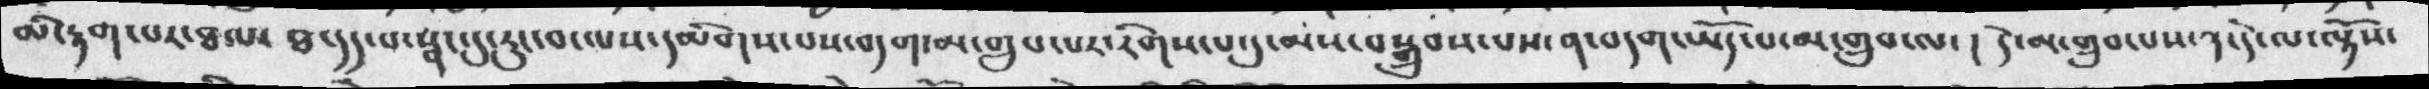མི་རྟག་པར་ཐལ་ ཐ་དད་པ་སྣང་དུ་རུང་བ་ལས་དམིགས་པས་བདག་མ་གྲུབ་པར་རིགས་པ་དུ་མས་བསྒྲུབས་པས་ན་བདག་ཡོད་པ་མ་གྲུབ་ལ་ ། དེ་མ་གྲུབ་པས་༣་དེ་ལ་ལྟོས་
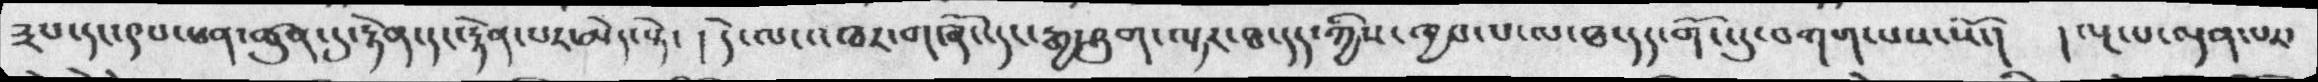༣པ་དང་༩པ་ཕན་ཚུན་དུ་རྟེན་དང་རྟེན་པར་མེད་སྟེ་ ། དེ་ལ་འཁར་གཞོ་དང་རྒྱ་ཤུག་ལྟར་ཐ་དད་ཀྱིས་ཁྱབ་པ་ལ་ཐ་དད་གོང་དུ་བགག་པས་སོ་།  །ལྔ་པ་ལྡན་པར་
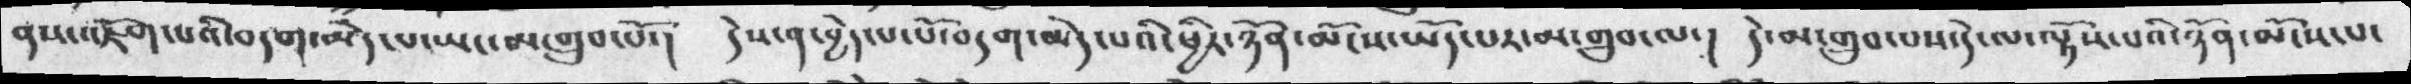ནས་འཇོག་པའི་བདག་མེད་པ་ཡང་མ་གྲུབ་པོ་།  དེས་ན་བྱེད་པ་པོ་བདག་མེད་པའི་ཕྱིར་ཉོན་མོངས་ཡོད་པར་མ་གྲུབ་ལ་།  དེ་མ་གྲུབ་པས་དེ་ལ་ལྟོས་པའི་ཉོན་མོངས་པ་
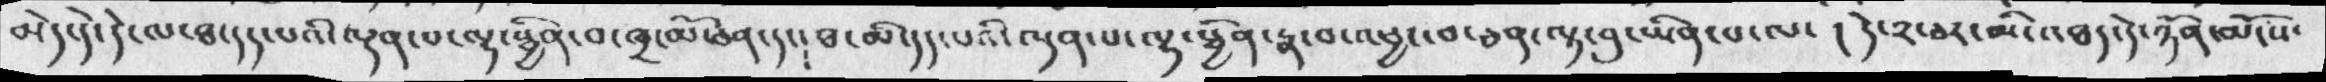མེད་དེ་དེ་ལ་ཐ་དད་པའི་ལྡན་པ་ལྷ་སྦྱིན་བ་ཁྲ་མོ་ཅན་དང༴ ཐ་མི་དད་པའི་ལྡན་པ་ལྷ་སྦྱིན་རྣ་བ་འཕྱ་བ་ཅན་ལྟ་བུ་ཡིན་པ་ལ་ ། དེ་༢་ཅར་མི་འཐད་དེ་ཉོན་མོངས་
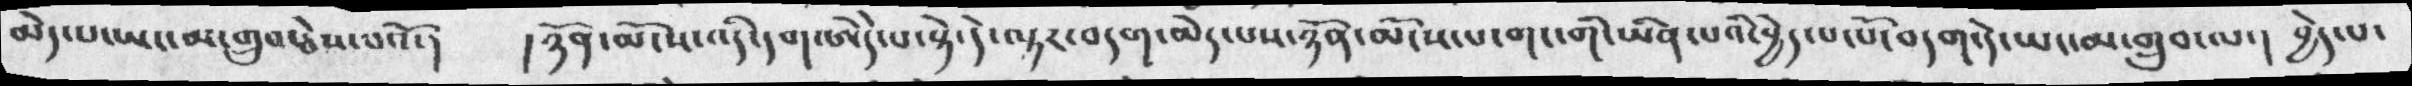མེད་པ་ཡང་མ་གྲུབ་ཅེས་པའོ་།  ། ཉོན་མོངས་འདི་དག་ཨེདེ་པ་སྟེ་དེ་ལྟར་བདག་མེད་པས་ཉོན་མོངས་པ་གང་གི་ཡིན་པའི་བྱེད་པ་པོ་བདག་དེ་ཡང་མ་གྲུབ་ལ་།  བྱེད་པ་
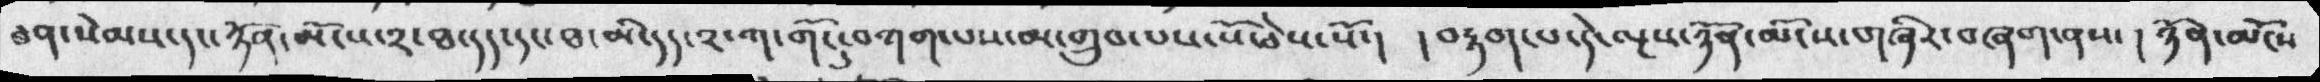ཕན་སེམས་དང་ཉོན་མོངས་༢་ཐ་དད་ད་ཐ་མི་དད་༢་ཀ་གོང་དུ་བཀག་པས་མ་གྲུབ་པས་སོ་ཅེས་སོ་།  །བརྟག་པ་དེ་ལྔས་ཉོན་མོངས་གཞིར་བཞག་ནས་།  ཉོན་མོངས་
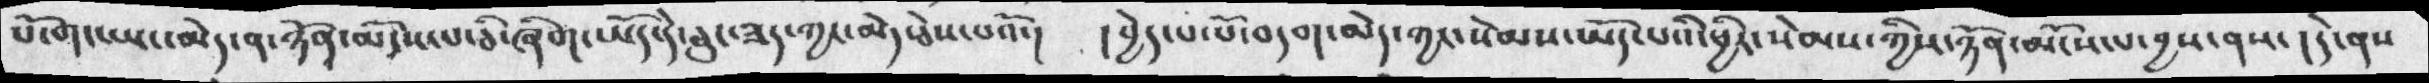པོ་གང་ཡང་མེད་ན་ཉོན་མོངས་པ་ཅི་ཞིག་ཡོད་དེ་ཅུང་ཟད་ཀྱང་མེད་ཅེས་པའོ་།  །བྱེད་པ་པོ་བདག་མེད་ཀྱང་སེམས་ཡོད་པའི་ཕྱིར་སེམས་ཀྱིས་ཉོན་མོངས་པ་བྱས་ནས་། དེ་ནས་
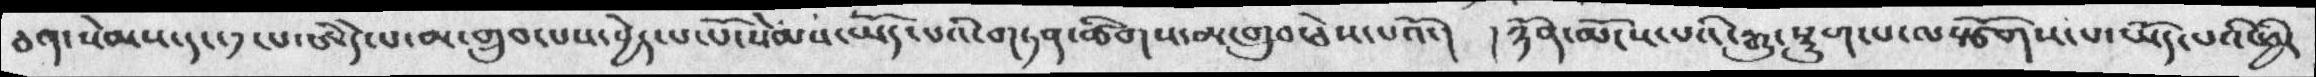ཅན་སེམས་དང་༡་པ་ཨེདེ་པ་མ་གྲུབ་པས་བྱེད་པ་པོ་སེམས་ཡོད་པའི་གཏན་ཚིགས་མ་གྲུབ་ཅེས་པའོ་།  ཉོན་མོངས་པའི་རྒྱུ་སྡུག་པ་ལསྩོགས་པ་ཡོད་པའི་ཕྱིར་
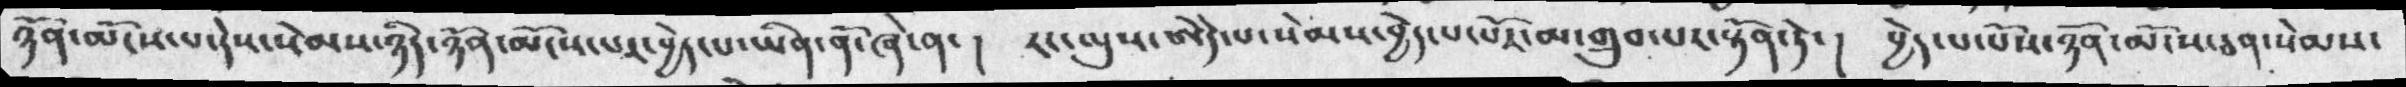ཉོན་མོངས་པ་དེས་སེམས་ཉིད་ཉོན་མོངས་པར་བྱེད་པ་ཡིན་ནོ་ཞེ་ན་།  རང་ལུས་ཨེདེ་པ་སེམས་བྱེད་པ་པོར་མ་གྲུབ་པར་སྟོན་ཏེ་།  བྱེད་པ་པོས་ཉོན་མོངས་ཅན་སེམས་
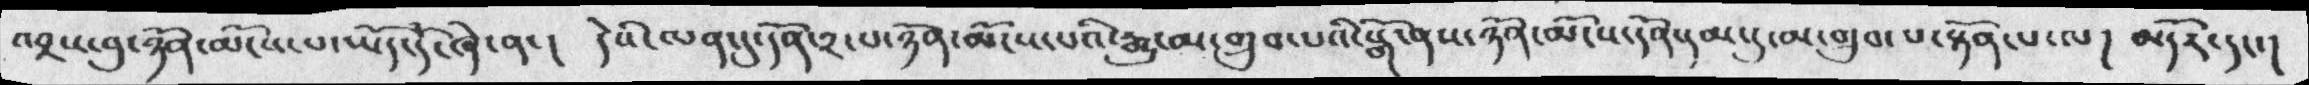འབྲས་བུ་ཉོན་མོངས་པ་ཡོད་དོ་ཞེ་ན་།  དེའི་ལན་དུ་དོན་༢་པ་ཉོན་མོངས་པའི་རྒྱུ་མ་གྲུབ་པའི་སྒོ་ནས་ཉོན་མོངས་དོན་དམ་དུ་མ་གྲུབ་པ་སྟོན་པ་ལ་། མདོར་དང་།
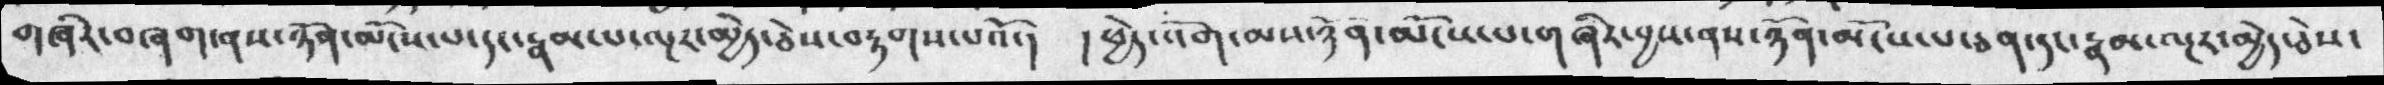གཞིར་བཞག་ནས་ཉོན་མོངས་པ་དང་རྣམ་པ་ལྔར་མྱེད་ཅེས་བརྟགས་པའོ་། །ཕྱེད་འོག་མས་ཉོན་མོངས་པ་གཞིར་བྱས་ནས་ཉོན་མོངས་པ་ཅན་དང་རྣམ་ལྔར་མྱེད་ཅེས་
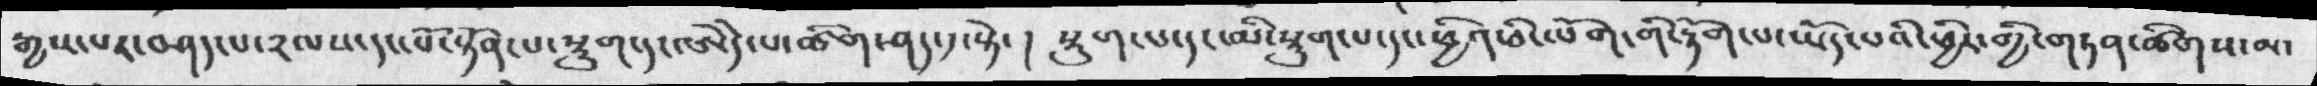རྒྱས་པར་བཤད་པ་༢ལས་དང་པོ་སྟོན་པ་སྡུག་དང་ཨེདེ་པ་ཚིག་ཤད་༡་སྟེ་ །  སྡུག་པ་དང་མི་སྡུག་པ་དང་ཕྱིན་ཅི་ལོག་གི་རྟོག་པ་ཡོད་པའི་ཕྱིར་གྱི་གཏན་ཚིགས་མ་
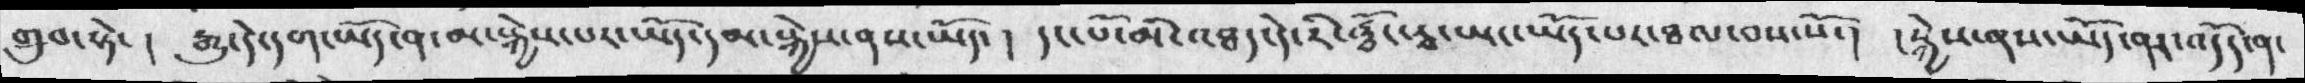གྲུབ་སྟེ་ ། རྒྱུ་དེ་དག་ཡོད་ན་མ་སྐྱེས་པར་ཡོད་དམ་སྐྱེས་ནས་ཡོད་ ། དང་པོ་མི་འཐད་དེ་རི་རྦོང་རྭ་ཡང་ཡོད་པར་ཐལ་བས་སོ་།  །སྐྱེས་ནས་ཡོད་ནར་འདོད་ན་
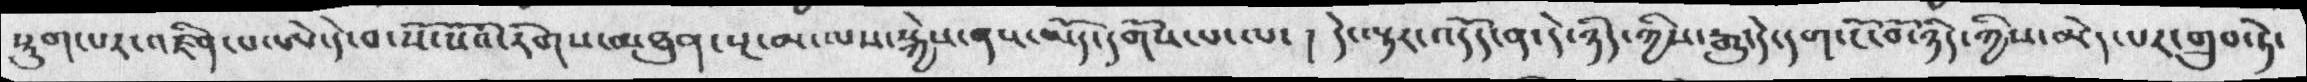སྡུག་པར་འཛིན་པ་ཨེ་དེ་བ་སོ་སོའི་རིགས་མཐུན་སྔ་མ་ལས་སྐྱེས་ནས་ཡོད་དགོས་པ་ལ་ །  དེ་ལྟར་འདོད་ན་དེ་ཉིད་ཀྱིས་རྒྱུ་དེ་དག་ངོ་་བོ་ཉིད་ཀྱིས་མེད་པར་གྲུབ་ཏེ་
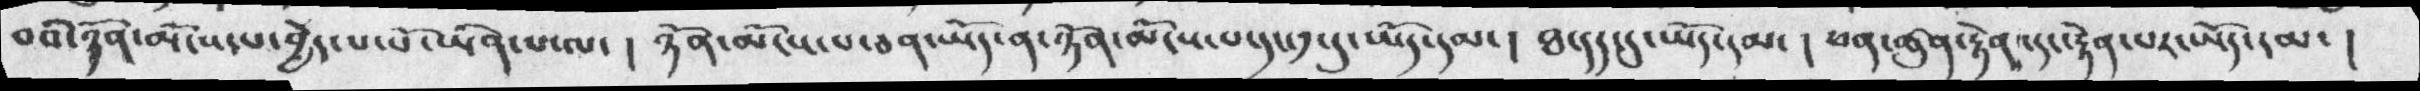བའི་ཉོན་མོངས་པ་བྱེད་པ་པོ་ཡིན་པ་ལ་  ། ཉོན་མོངས་པ་ཅན་ཡོད་ན་ཉོན་མོངས་པ་དང་༡་དུ་ཡོད་དམ་།  ཐ་དད་དུ་ཡོད་དམ་།  ཕན་ཚུན་རྟེན་དང་རྟེན་པར་ཡོད་དམ་ །
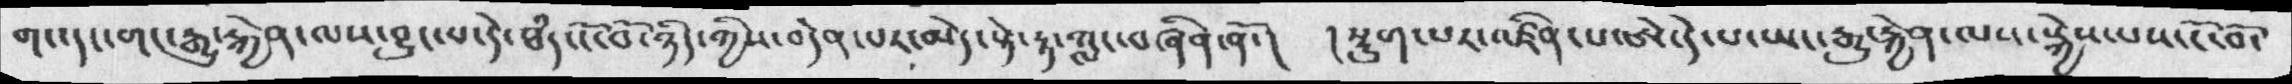གང་དང་གང་རྒྱུ་རྐྱེན་ལས་བྱུང་ས་དེ་ཐཾད་ངོ་བོ་ཉིད་ཀྱིས་བདེན་པར་མེད་སྟེ་རྟ་ཀླང་བཞིན་ནོ་།  །སྡུག་པར་འཛིན་པ་ཨེ་དེ་པ་ཡང་རྒྱུ་རྐྱེན་ལས་སྐྱེས་པས་ངོ་བོ་
